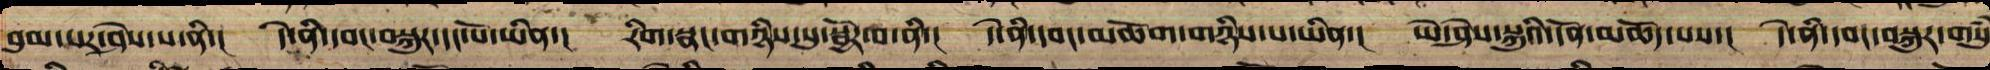བུམ་པར་ཤེས་པ་ནི་། དེ་ནི་དབང་བསྐུར་དང་པོ་ཡིན་། རིག་སྣང་གཉིས་སུ་སྦྱོར་བ་ནི་། དེ་ནི་དབང་མཆོག་གཉིས་པ་ཡིན་། ཡེ་ཤེས་སྐུ་ཡི་དོན་མཆོད་པས་། དེ་ནི་དབང་བསྐུར་གསུཾ
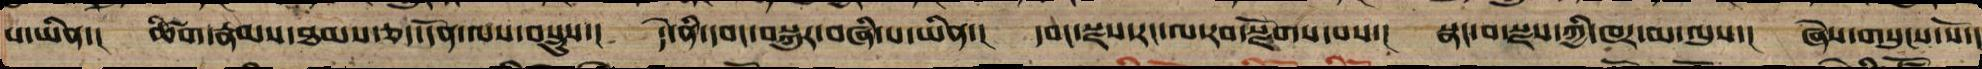པ་ཡིན་། ཚིག་རྣམས་ཐམས་ཅད་དོན་ལ་བསྡུས་། དེ་ནི་དབང་བསྐུར་བཞི་པ་ཡིན་། དབང་སྫས་རང་ལ་རབ་སྫོགས་པས་། སྣང་བ་སསྫ་ཀྱི་ཁར་མ་ལུས་། ཞེས་གསུངས་སོ་།
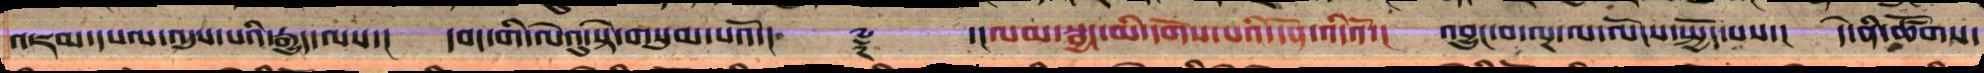འཇམ་དཔལ་འདུས་པའི་རྒྱུད་ལས་། དབང་གི་ལེའུ་སྟེ་གསུམ་པའོ་།། ༈ །་།ལམ་སྦྱང་མི་དགོས་པའི་དོན་འདིའོ་། འབྱུང་བ་ལྔ་ལ་ལོངས་སྤྱད་པས་། དེ་ནི་ཚོགས་
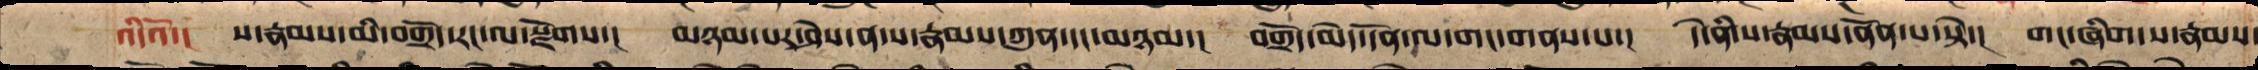འདིའོ་། ས་རྣམས་མི་བགྲོད་རང་ལ་སྫོགས་། མཉམ་པར་ཤེས་ནས་ས་རྣམས་ཀུན་དང་མཉམ་། བགྲོད་མེད་དོན་ལ་གང་གནས་པ་། དེ་ནི་ས་རྣམས་ནོན་པ་སྟེ་། གང་ཞིག་ས་རྣམས་
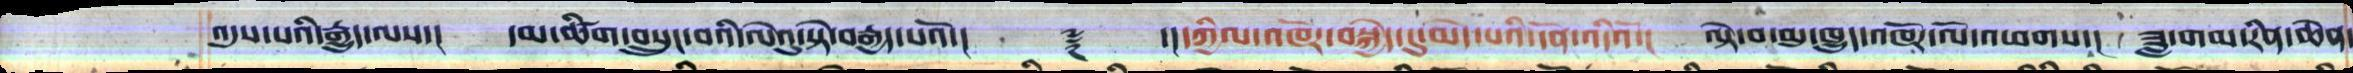འདུས་པའི་རྒྱུད་ལས་། དམ་ཚིག་བསྲུང་བའི་ལེའུ་སྟེ་བརྒྱད་པའོ་།། ༈ ་།།དཀྱིལ་འཁོར་བསྐྱེད་དུ་མེད་པའི་དོན་འདིའོ་། ལྟེ་བ་མུ་ཁྱུད་འཁོར་ལོ་འཕགས་། ཟླ་གམ་རིན་ཆེན་
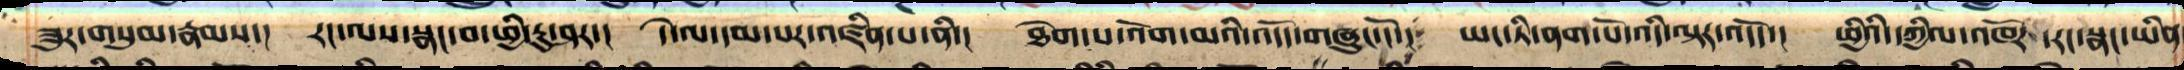ཟུར་གསུམ་རྣམས་། རང་ལས་སྣང་བ་ཕྱི་རུ་ཤར་། དེ་ལ་དམ་པར་འཛིན་པ་ནི་། ཐེག་པ་འོག་མའི་འདོད་གཞུང་ངོ་། ཡང་ཏི་ནག་པོ་འདི་ལྟར་འདོད་། ཕྱི་ཡི་དཀྱིལ་འཁོར་རང་སྣང་ཡིན
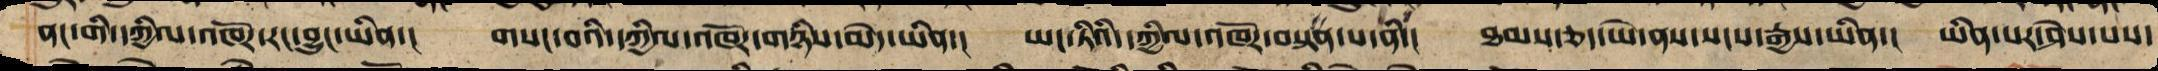ནང་གི་དཀྱིལ་འཁོར་རང་བྱུང་ཡིན་། གསང་བའི་དཀྱིལ་འཁོར་གཉིས་མེད་ཡིན་། ཡང་ཏིའི་དཀྱིལ་འཁོར་བསྟན་པ་ནི་། ཐམས་ཅད་ཡེ་ནས་སངས་རྒྱས་ཡིན་། ཡིན་པར་ཤེས་པས་
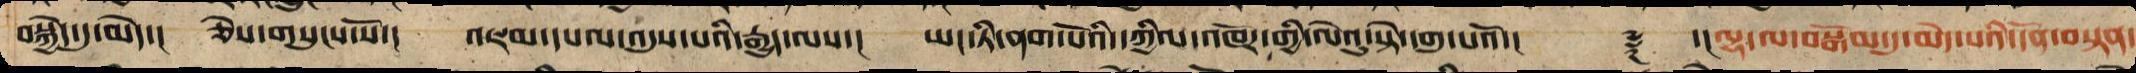བསྐྱེད་དུ་མེད་། ཅེས་གསུངས་སོ་། འཇམ་དཔལ་འདུས་པའི་རྒྱུད་ལས་། ཡང་ཏི་ནག་པོའི་དཀྱིལ་འཁོར་གྱི་ལེའུ་སྟེ་དགུ་པའོ།་། ༈ ་།།ལྷ་ལ་བསྒོམ་དུ་མེད་པའི་དོན་བསྟན་
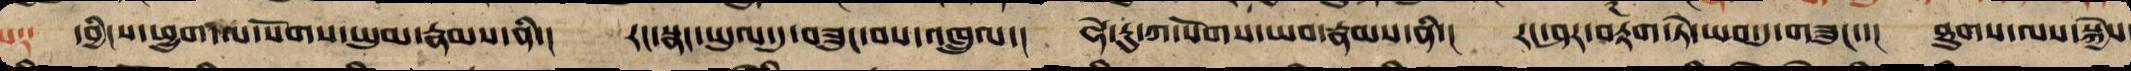པ༑ དབྱིངས་ཕྱུག་ལ་སོགས་ཡུམ་རྣམས་ནི་། རང་སྣང་ཡུལ་དུ་གཟུང་བས་འཁྲུལ་། ཧེ་རུ་ཀ་སོགས་ཡབ་རྣམས་ནི་། རང་ཤར་བརྟག་སྟེ་ཡབ་ཏུ་གཟུང་་། ཐུགས་ལས་སྐྱེས
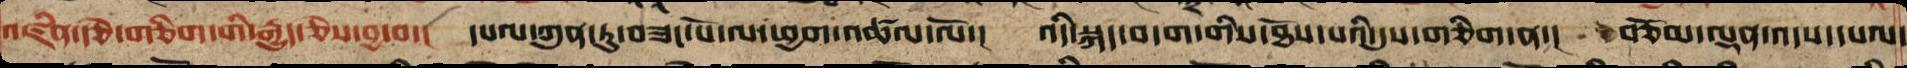འཛིན་རྩེ་གཅིག་གི་རྒྱུད་ཅེས་བྱ་བ་། དཔལ་ཀུན་ཏུ་བཟང་པོ་ལ་ཕྱག་འཚལ་ལོ་། འདི་སྐད་བདག་གིས་ཐོས་པ་དུས་གཅིག་ན་། བཅོམ་ལྡན་འདས་དཔལ་
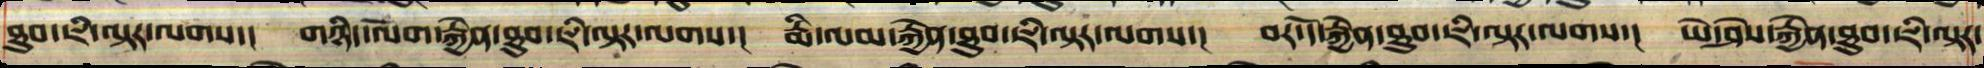ཐུབ་ཇི་ལྟར་ལགས་། གཉིད་ལོག་རྐྱེན་ཐུབ་ཇི་ལྟར་ལགས་། རྨི་ལམ་རྐྱེན་ཐུབ་ཇི་ལྟར་ལགས་། བར་དོ་རྐྱེན་ཐུབ་ཇི་ལྟར་ལགས་། ཡེ་ཤེས་རྐྱེན་ཐུབ་ཇི་ལྟར་
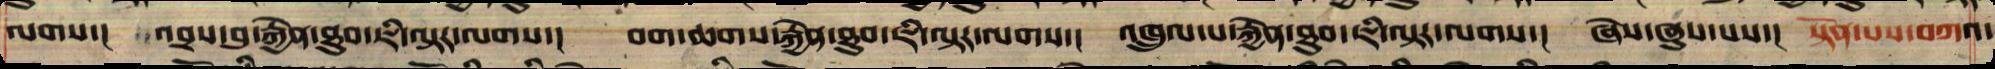ལགས་། འབྲས་བུ་རྐྱེན་ཐུབ་ཇི་ལྟར་ལགས་། བག་ཆགས་རྐྱེན་ཐུབ་ཇི་ལྟར་ལགས་། འཁྲུལ་པ་རྐྱེན་ཐུབ་ཇི་ལྟར་ལགས་། ཞེས་ཞུས་པས་། སྟོན་པས་བཀའ་
